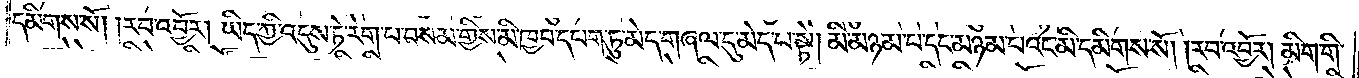དམིགས་སོ། །རབ་འབྱོར། ཡིད་ཀྱི་འདུས་ཏེ་རེག་པ་བསམ་གྱིས་མི་ཁྱབ་དཔག་ཏུ་མེད་གཞལ་དུ་མེད་པ་སྟེ། མི་མཉམ་པ་དང་མཉམ་པའང་མི་དམིགས་སོ། །རབ་འབྱོར། མིག་གི་
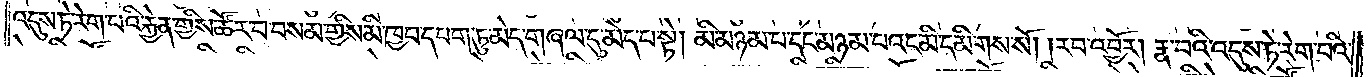འདུས་ཏེ་རེག་པའི་རྐྱེན་གྱིས་ཚོར་བ་བསམ་གྱིས་མི་ཁྱབ་དཔག་ཏུ་མེད་གཞལ་དུ་མེད་པ་སྟེ། མི་མཉམ་པ་དང་མཉམ་པའང་མི་དམིགས་སོ། །རབ་འབྱོར། རྣ་བའི་འདུས་ཏེ་རེག་པའི་
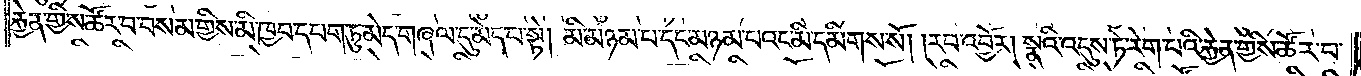རྐྱེན་གྱིས་ཚོར་བ་བསམ་གྱིས་མི་ཁྱབ་དཔག་ཏུ་མེད་གཞལ་དུ་མེད་པ་སྟེ། མི་མཉམ་པ་དང་མཉམ་པའང་མི་དམིགས་སོ། །རབ་འབྱོར། སྣའི་འདུས་ཏེ་རེག་པའི་རྐྱེན་གྱིས་ཚོར་བ་
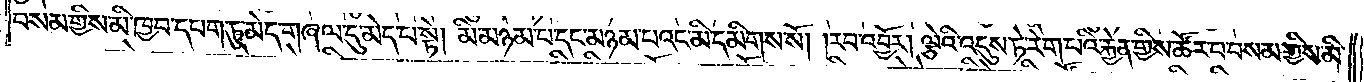བསམ་གྱིས་མི་ཁྱབ་དཔག་ཏུ་མེད་གཞལ་དུ་མེད་པ་སྟེ། མི་མཉམ་པ་དང་མཉམ་པའང་མི་དམིགས་སོ། །རབ་འབྱོར། ལྕེའི་འདུས་ཏེ་རེག་པའི་རྐྱེན་གྱིས་ཚོར་བ་བསམ་གྱིས་མི་
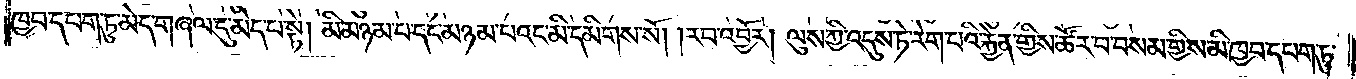ཁྱབ་དཔག་ཏུ་མེད་གཞལ་དུ་མེད་པ་སྟེ། མི་མཉམ་པ་དང་མཉམ་པའང་མི་དམིགས་སོ། །རབ་འབྱོར། ལུས་ཀྱི་འདུས་ཏེ་རེག་པའི་རྐྱེན་གྱིས་ཚོར་བ་བསམ་གྱིས་མི་ཁྱབ་དཔག་ཏུ་
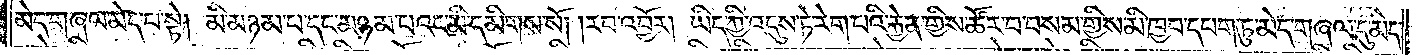མེད་གཞལ་དུ་མེད་པ་སྟེ། མི་མཉམ་པ་དང་མཉམ་པའང་མི་དམིགས་སོ། །རབ་འབྱོར། ཡིད་ཀྱི་འདུས་ཏེ་རེག་པའི་རྐྱེན་གྱིས་ཚོར་བ་བསམ་གྱིས་མི་ཁྱབ་དཔག་ཏུ་མེད་པ་གཞལ་དུ་མེད་
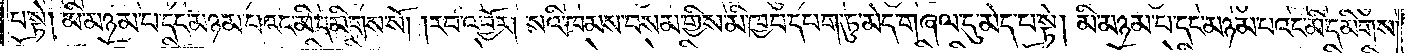པ་སྟེ། མི་མཉམ་པ་དང་མཉམ་པའང་མི་དམིགས་སོ། །རབ་འབྱོར། སའི་ཁམས་བསམ་གྱིས་མི་ཁྱབ་དཔག་ཏུ་མེད་གཞལ་དུ་མེད་པ་སྟེ། མི་མཉམ་པ་དང་མཉམ་པའང་མི་དམིགས་
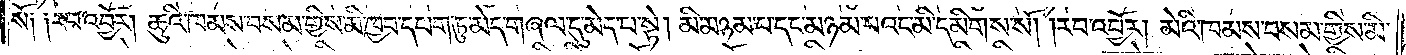སོ༑ ༑རབ་འབྱོར། ཆུའི་ཁམས་བསམ་གྱིས་མི་ཁྱབ་དཔག་ཏུ་མེད་གཞལ་དུ་མེད་པ་སྟེ། མི་མཉམ་པ་དང་མཉམ་པའང་མི་དམིགས་སོ། །རབ་འབྱོར། མེའི་ཁམས་བསམ་གྱིས་མི་
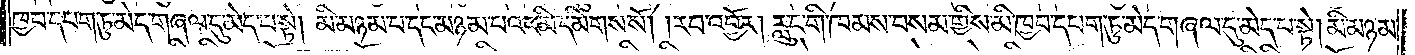ཁྱབ་དཔག་ཏུ་མེད་གཞལ་དུ་མེད་པ་སྟེ། མི་མཉམ་པ་དང་མཉམ་པའང་མི་དམིགས་སོ། །རབ་འབྱོར། རླུང་གི་ཁམས་བསམ་གྱིས་མི་ཁྱབ་དཔག་ཏུ་མེད་གཞལ་དུ་མེད་པ་སྟེ། མི་མཉམ་
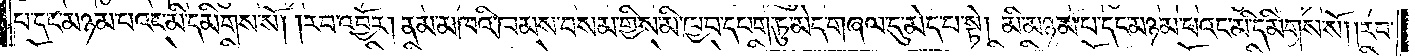པ་དང་མཉམ་པའང་མི་དམིགས་སོ། །རབ་འབྱོར། ནམ་མཁའི་ཁམས་བསམ་གྱིས་མི་ཁྱབ་དཔག་ཏུ་མེད་གཞལ་དུ་མེད་པ་སྟེ། མི་མཉམ་པ་དང་མཉམ་པའང་མི་དམིགས་སོ། །རབ་
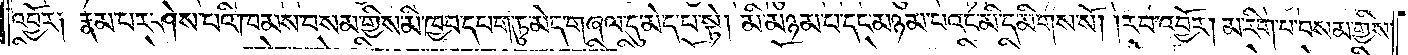འབྱོར། རྣམ་པར་ཤེས་པའི་ཁམས་བསམ་གྱིས་མི་ཁྱབ་དཔག་ཏུ་མེད་གཞལ་དུ་མེད་པ་སྟེ། མི་མཉམ་པ་དང་མཉམ་པའང་མི་དམིགས་སོ། །རབ་འབྱོར། མ་རིག་པ་བསམ་གྱིས་
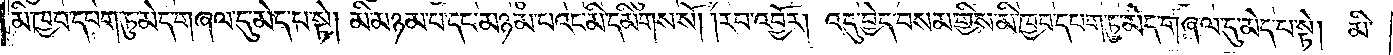མི་ཁྱབ་དཔག་ཏུ་མེད་གཞལ་དུ་མེད་པ་སྟེ། མི་མཉམ་པ་དང་མཉམ་པའང་མི་དམིགས་སོ། །རབ་འབྱོར། འདུ་བྱེད་བསམ་གྱིས་མི་ཁྱབ་དཔག་ཏུ་མེད་གཞལ་དུ་མེད་པ་སྟེ། མི་
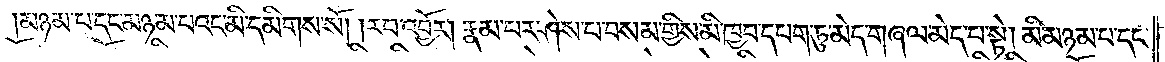མཉམ་པ་དང་མཉམ་པའང་མི་དམིགས་སོ། །རབ་འབྱོར། རྣམ་པར་ཤེས་པ་བསམ་གྱིས་མི་ཁྱབ་དཔག་ཏུ་མེད་གཞལ་མེད་པ་སྟེ། མི་མཉམ་པ་དང་
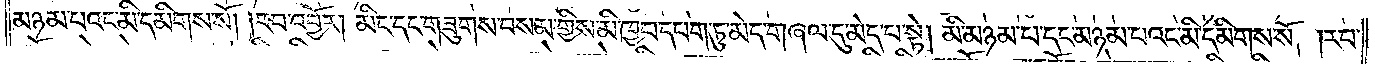མཉམ་པའང་མི་དམིགས་སོ། །རབ་འབྱོར། མིང་དང་གཟུགས་བསམ་གྱིས་མི་ཁྱབ་དཔག་ཏུ་མེད་གཞལ་དུ་མེད་པ་སྟེ། མི་མཉམ་པ་དང་མཉམ་པའང་མི་དམིགས་སོ། །རབ་
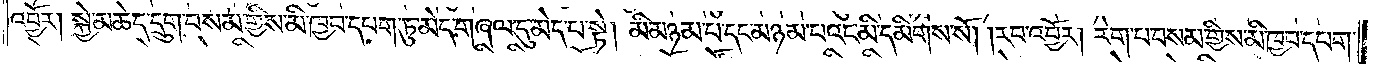འབྱོར། སྐྱེ་མཆེད་དྲུག་བསམ་གྱིས་མི་ཁྱབ་དཔག་ཏུ་མེད་གཞལ་དུ་མེད་པ་སྟེ། མི་མཉམ་པ་དང་མཉམ་པའང་མི་དམིགས་སོ། །རབ་འབྱོར། རེག་པ་བསམ་གྱིས་མི་ཁྱབ་དཔག་
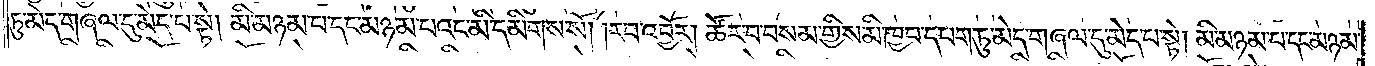ཏུ་མེད་གཞལ་དུ་མེད་པ་སྟེ། མི་མཉམ་པ་དང་མཉམ་པའང་མི་དམིགས་སོ། །རབ་འབྱོར། ཚོར་བ་བསམ་གྱིས་མི་ཁྱབ་དཔག་ཏུ་མེད་གཞལ་དུ་མེད་པ་སྟེ། མི་མཉམ་པ་དང་མཉམ་
